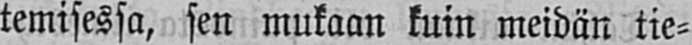temisessa, sen mukaan kuin meidän tie-
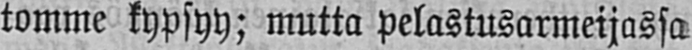tomme kypsyy; mutta pelastusarmeijassa
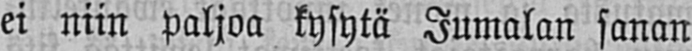ei niin paljoa kysytä Jumalan sanan
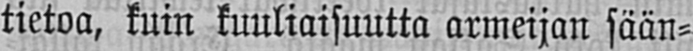tietoa, kuin kuuliaisuutta armeijan sään-
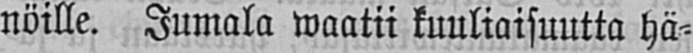nöille. Jumala waatii kuuliaisuutta hä-
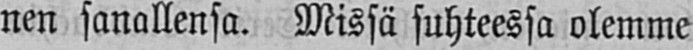nen sanallensa. Missä suhteessa olemme
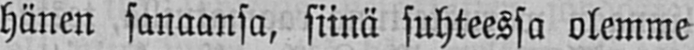hänen sanaansa, siinä suhteessa olemme
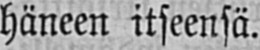häneen itseensä.
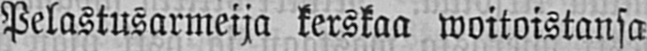Pelastusarmeija kerskaa woitoistansa
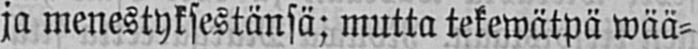ja menestyksestänsä; mutta tekewätpä wää-
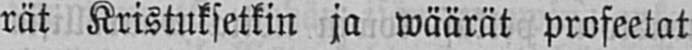rät Kristuksetkin ja wäärät profeetat
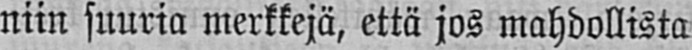niin suuria merkkejä, että jos mahdollista
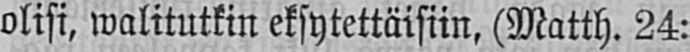olisi, walitutkin eksytettäisiin, (Matth. 24:
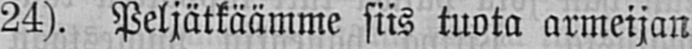24). Peljätkäämme siis tuota armeijan
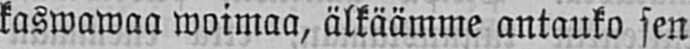kaswawaa woimaa, älkäämme antauko sen
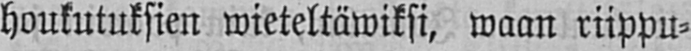houkutuksien wieteltäwiksi, waan riippu-
